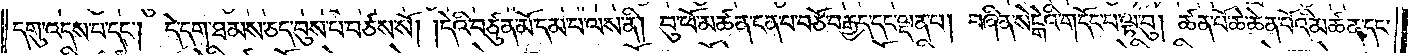དགུ་འདས་པ་དང༌། དེ་དག་ཐམས་ཅད་བུས་པ་བཙས་སོ། །དེའི་བཙུན་མོ་དམ་པ་ལས་ནི། བུ་ཕོ་མཚན་ངན་པ་བཅོ་བརྒྱད་དང་ལྡན་པ། བཞིན་སེངྒེའི་གདོང་པ་ལྟ་བུ། ཚན་པོ་ཆེ་ཆེན་པོའི་མཚན་དང་
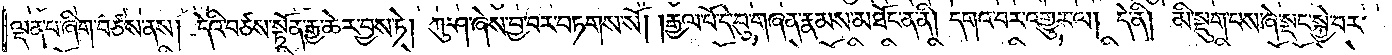ལྡན་པ་ཞིག་བཙས་ནས། དེའི་བཙས་སྟོན་རྒྱ་ཆེར་བྱས་ཏེ། ཀུ་ཤ་ཞེས་བྱ་བར་བཏགས་སོ། །རྒྱལ་པོ་དེ་བུ་གཞན་རྣམས་མཐོང་ན་ནི། དགའ་བར་འགྱུར་ལ། དེ་ནི། མི་སྡུག་པས་ཞེ་སྡང་སྐྱེ་བར་
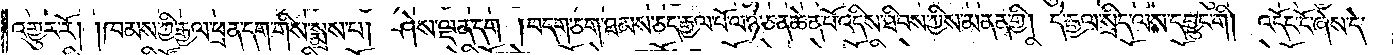འགྱུར་རོ། །ཁམས་ཀྱི་རྒྱལ་ཕྲན་དག་གིས་སྨྲས་པ། ཤེས་ལྡན་དག །བདག་ཅག་ཐམས་ཅད་རྒྱལ་པོ་ལ་ཉེ་ཅན་ཆེན་པོ་འདིས་ཐིབས་ཀྱིས་མནན་གྱི། དེ་རྒྱལ་སྲིད་ལས་དབྱུང་གི། འདོང་ངོ་ཞེས་དེ་
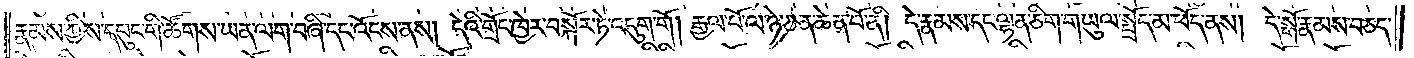རྣམས་ཀྱིས་དཔུང་གི་ཚོགས་ཡན་ལག་བཞི་དང་འོངས་ནས། དེའི་གྲོང་ཁྱེར་བསྐོར་ཏེ་འདུག་གོ། རྒྱལ་པོ་ལ་ཉེ་ཅན་ཆེན་པོ་ནི། དེ་རྣམས་དང་ལྷན་ཅིག་གཡུལ་སྤྲོད་མ་ཕོད་ནས། དེ་སྒོ་རྣམས་བཅད་
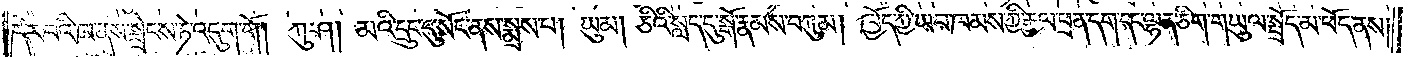དེར་བའི་ཁ་ནས་སྦྲེངས་ཏེ་འདུག་གོ། ཀུ་ཤ། མའི་དྲུང་དུ་སོང་ནས་སྨྲས་པ། ཡུམ། ཅིའི་སླད་དུ་སྒོ་རྣམས་བཀུམ། ཁྱོད་ཀྱི་ཡབ་ཁམས་ཀྱི་རྒྱལ་ཕྲན་དག་དང་ལྷན་ཅིག་གཡུལ་སྤྲོད་མ་ཕོད་ནས།
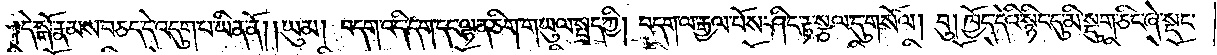དེ་སྒོ་རྣམས་བཅད་དེ་འདུག་པ་ཡིན་ནོ། །ཡུམ། བདག་འདི་དག་དང་ལྷན་ཅིག་གཡུལ་སྤྲད་ཀྱི། བདག་ལ་རྒྱལ་པོས་ཤིང་རྟ་སྩལ་དུ་གསོལ། བུ། ཁྱོད་དེའི་སྙིང་དུ་མི་སྡུག་ཅིང་ཞེ་སྡང་
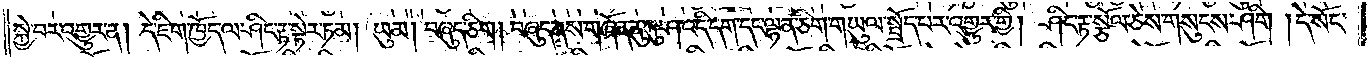སྐྱེ་བར་འགྱུར་ན། དེ་ཇི་ག་ཁྱོད་ལ་ཤིང་རྟ་སྟེར་ཏམ། ཡུམ། བཞུད་ཅིག། བཞུད་ནས་གཞོན་ནུ་ཀུ་ཤ་འདི་དག་དང་ལྷན་ཅིག་གཡུལ་སྤྲོད་པར་འགྱུར་གྱི། ཤིང་རྟ་སྩོལ་ཅེས་གསུངས་ཤིག །དེ་སོང་
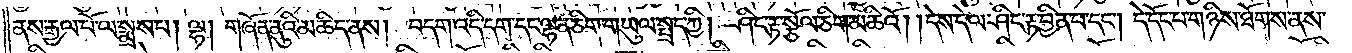ནས་རྒྱལ་པོ་ལ་སྨྲས་པ། ལྷ། གཞོན་ནུའི་མཆིད་ནས། བདག་འདི་དག་དང་ལྷན་ཅིག་གཡུལ་སྤྲད་ཀྱི། ཤིང་རྟ་སྩོལ་ཅིག་མཆིའོ། །དེས་དེ་ལ་ཤིང་རྟ་བྱིན་པ་དང༌། དེ་དོང་པ་གཉིས་ཐོགས་ནས་
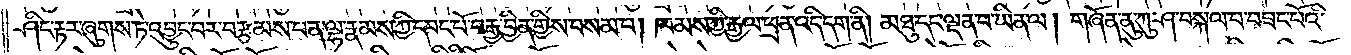ཤིང་རྟར་ཞུགས་ཏེ་འབྱུང་བར་བརྩམས་པ་ན་ལྷ་རྣམས་ཀྱི་དབང་པོ་བརྒྱ་བྱིན་གྱིས་བསམ་པ། ཁམས་ཀྱི་རྒྱལ་ཕྲན་འདི་དག་ནི། མཐུ་དང་ལྡན་པ་ཡིན་ལ། གཞོན་ནུ་ཀུ་ཤ་བསྐལ་པ་བཟང་པོའི་
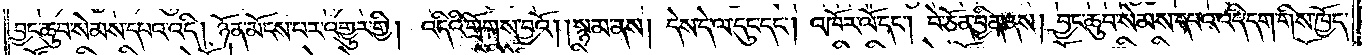བྱང་ཆུབ་སེམས་དཔའ་འདི། ཉོན་མོངས་པར་འགྱུར་གྱི། འདིའི་གྲོགས་བྱའོ། །སྙམ་ནས། དེས་དེ་ལ་དུང་དང༌། འཁོར་ལོ་དང༌། བེ་ཅོན་བྱིན་ནས། བྱང་ཆུབ་སེམས་དཔའ་འདི་དག་གིས་ཁྱོད་
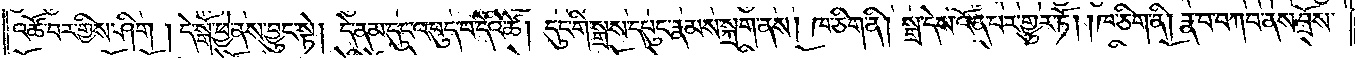འཚོ་བར་གྱིས་ཤིག །དེ་སྒོ་ཕྱེ་ནས་བྱུང་སྟེ། དེ་ནམ་དུང་འབུད་པ་དེའི་ཚེ། དུང་གི་སྒྲས་དཔུང་རྣམས་སྐྲག་ནས། ཁ་ཅིག་ནི། སྒྲ་དེས་འོན་པར་གྱུར་ཏོ། །ཁ་ཅིག་ནི། རྣ་བ་བཀབ་ནས་བྲོས་
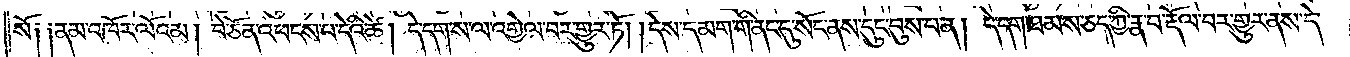སོ༑ ༑ནམ་འཁོར་ལོའམ། བེ་ཅོན་འཕངས་པ་དེའི་ཚེ། དེ་དག་ས་ལ་འགྱེལ་བར་གྱུར་ཏོ། །དེས་དམག་གི་ནང་དུ་སོང་ནས་དུང་བུས་པ་ན། དེ་དག་ཐམས་ཅད་ཀྱི་རྣ་བ་རྡོལ་བར་གྱུར་ནས་དེ་
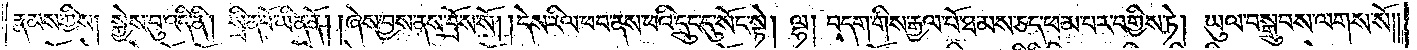རྣམས་ཀྱིས། སྐྱེས་བུ་འདི་ནི། སྲིན་པོ་ཡིན་ནོ། །ཞེས་བྱས་ནས་བྲོས་སོ། །དེས་རིལ་ཕབ་ནས་ཕའི་དྲུང་དུ་སོང་སྟེ། ལྷ། བདག་གིས་རྒྱལ་པོ་ཐམས་ཅད་ཕམ་པར་བགྱིས་ཏེ། ཡུལ་བསྒྲུབས་ལགས་སོ༎
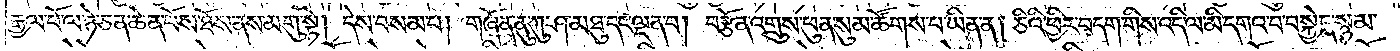རྒྱལ་པོ་ལ་ཉེ་ཅན་ཆེན་པོས་ཐོས་ནས་མགུ་སྟེ། དེས་བསམ་པ། གཞོན་ནུ་ཀུ་ཤ་མཐུ་དང་ལྡན་པ། བརྩོན་འགྲུས་ཕུན་སུམ་ཚོགས་པ་ཡིན་ན། ཅིའི་ཕྱིར་བདག་གིས་འདི་ལ་མི་དགའ་བ་བསྐྱེད་སྙམ་
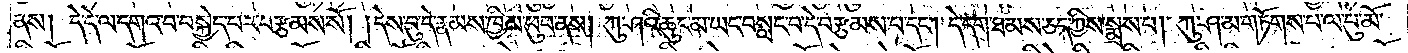ནས། དེ་དེ་ལ་དགའ་བ་བསྐྱེད་པར་བརྩམས་སོ། །དེས་བུ་དེ་རྣམས་ཁྱིམ་ཕུབ་ནས། ཀུ་ཤའི་ཆུང་མ་ཡང་བསླང་བ་དེ་བརྩམས་པ་དང༌། དེ་དག་ཐམས་ཅད་ཀྱིས་སྨྲས་པ། ཀུ་ཤ་མ་གཏོགས་པ་ལ་བུ་མོ་
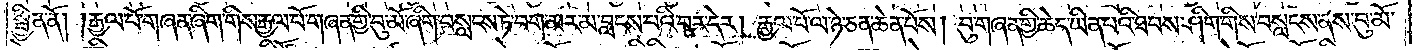སྦྱིན་ནོ། །རྒྱལ་པོ་གཞན་ཞིག་གིས་རྒྱལ་པོ་གཞན་གྱི་བུ་མོ་ཞིག་བསླངས་ཏེ་བག་མར་མ་བླངས་པའི་བར་དེར། རྒྱལ་པོ་ལ་ཉེ་ཅན་ཆེན་པོས། བུ་གཞན་གྱི་ཆེད་ཡིན་པའི་ཐབས་ཤིག་གིས་བསླངས་ནས་བུ་མོ་
